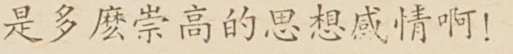是多麼崇高的思想感情啊！
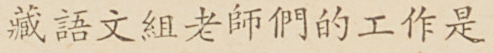藏語文組老師們的工作是
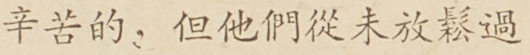辛苦的，但他們從未放鬆過
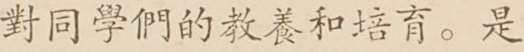對同學們的教養和培育。是
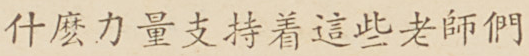什麼力量支持着這些老師們
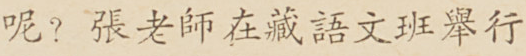呢？張老師在藏語文班舉行
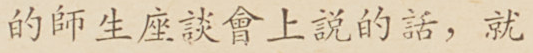的師生座談會上說的話，就
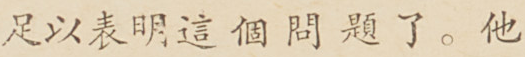足以表明這個問題了。他
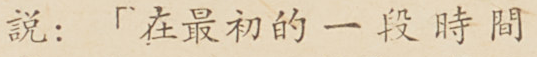說：「在最初的一段時間
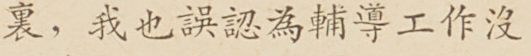裏，我也誤認為輔導工作沒
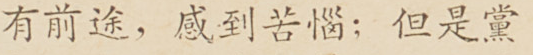有前途，感到苦惱；但是黨
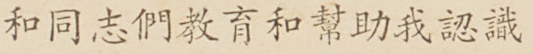和同志們教育和幫助我認識
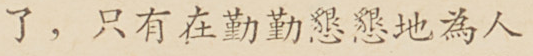了，只有在勤勤懇懇地為人
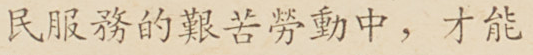民服務的艱苦勞動中，才能
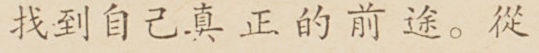找到自己真正的前途。從
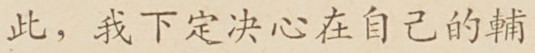此，我下定決心在自己的輔
